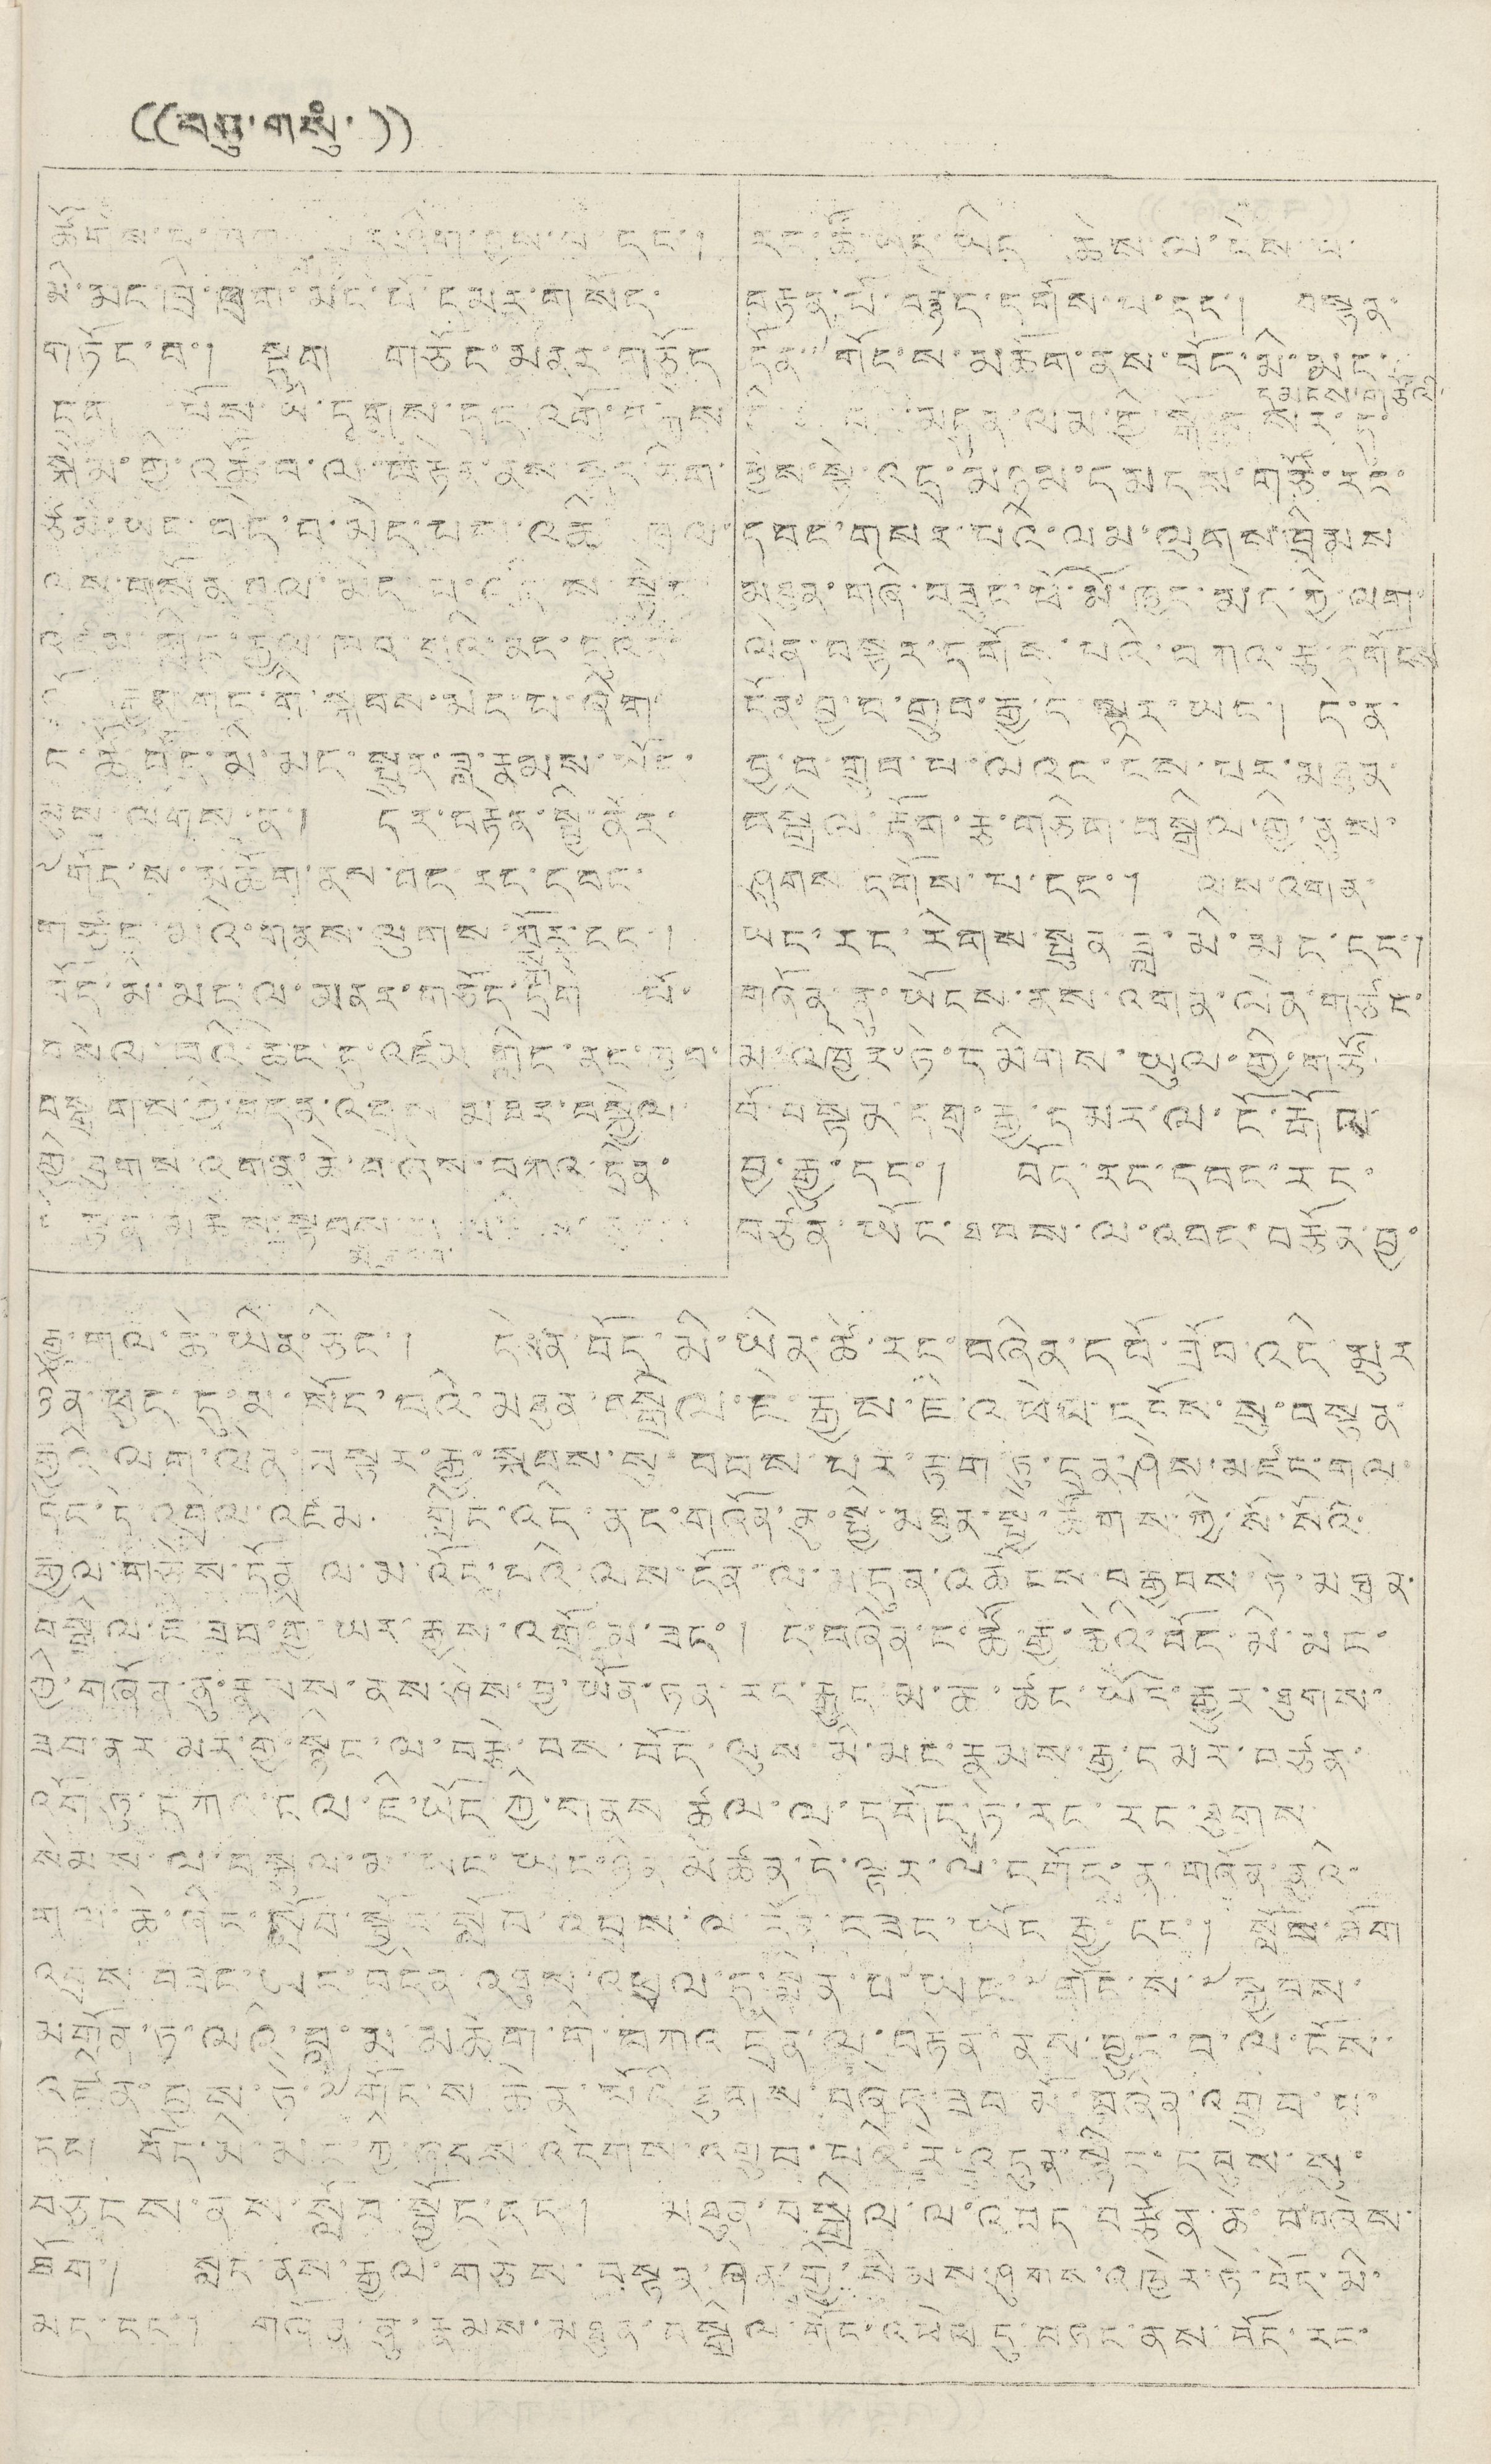(( བཅུ་གསུཾ་ ))
ཚོགས་པ་ཁག་   ར་ཤིག་བྱས་པ དང་།
མི་མང་ཁྲི་ཁྲག་མང་པོ་དམར་གསོད་
གཏོང་བ་། སྡུག གཅོང་མནར་གཅོད
དྲུག པོས་ཡི་དྭགས་དུད་འགྲོ་བསྐྲེས་
སྐོམ་གྱི་འཚོ་བ་ལ་བརྟེན་ནས་སྐད་ཅིག་
ཙམ་ཡང་བདེ་བ་མེད་པས་འཆི ཁྲལ་
ལས་གསོན བལ་མེད་པ་འདིས་སྟེང
འཛམ་གླིང་རྒྱལ་ཁབ་སུའི་མང་དུའང་
ལོ ་རྒྱས་གང་གི་སྐབས་མེད་པ་ཞིག་
ང་ཚོ་བོད་མི་མང་སྤུན་ཟླ་རྣམས་ཡོད་
མུས ལསག་ན་། དེར་བརྟེན་སྤྱི་ནོར་
༸གོང་ས་མཆོག་ནས་བོད་རང་དབང་
གཙང་མའི་གནས་ལུགས་སྐོར་དང་།
བོད་མི་མང་ལ་མནར་གཅོད་དྲག པོ་
བསེལ་བའི་ཆེད་དུ་འཛམ་གླིང་ནང་ཁྱབ་
བསྒྲགས་ཀྱི་བདེན་འབྲས་མཐར་བསྐྱེལ་
གྱི་ཐུགས་འགན་ཆེ་བཞེས་བཀའ་དྲིན་
སྟན་མཆེས་སྟབས  ས  ས་རུ ་
རང་ཚོ་ཡང་ཡིད་ཆེས་ལ་ངེས་པ་
བརྟན་པོ་བརྙེད་དགོས་པ་དང་། བསྟན་
དོན་་གོང་ས་མཆོག་ནས་བོད་མི་མང་
དམངས་གཙོའི་
གི  བ ་མདུན་ལམ་གྱི་སྒོ་གསར་དུ་
ཕྱེས་སྟེ་འདྲ་མཉམ་དམངས་གཙོ་རང་
དབང་གསར་པའི་ལམ་ལུགས་ཁྲིམས་
མཐུན་གཞི་བཟུང་ཕོ་མོ་ཁྱད་མེད་ཀྱི་ལག་
ལེན་བསྟན་དགོས་པའི་བཀའ་རྩ་དགོངས་
དོན་བྱ་བ་གྲུབ་རྒྱུ་དེ་སྟར་ཡང་། དེ་ན་
བྱ་བ་གྲུབ་པ་ལའང་ངས་པར་མཐུན་
བསྒྲིལ་རྡོག་རྩ་གཅིག་བསྒྲིལ་གྱི་ནུས་
ཤུགས་དགོས་པ་དང་། ལས་འགན་
ཡང་རང་རིགས་སྤུན་ཟླ་མི་མང་དང་།
གཞོན་ནུ་ཡོངས་ནས་འགན་ལེན་གཙང་
མ་འཁྱེར་ཏེ་དམིགས་ཡུལ་གྱི་གཙོ་
བོ་བསྟན་དགྲ་རྒྱ་དམར་ལ་ངོ་རྒོལ་
བྱ་རྒྱུ་དང་། བོད་རང་དབང་རང་
བཙན་ཡོང་ཐབས་ལ་འབད་བརྩོན་བྱ་
རྒྱུ་གལ་ཆེ་ཡིན་ཅིང་། དེས་ན་བོད་མི་ཡིན་ཚེ་རང་བཞིན་དབོ་ཟོབ་འདི་མུར་
ཉིན་ཕུད་དུ་མ་སོང་བའི་མཐུན་བསྒྲིལ་ཇེ་རྒྱས་ཇི་འཕེལ་དངོས་སུ་བསྟན་
རྒྱུའི་ལག་ལེན་བསྟར་རྒྱུ་སྐབས་སུ་བབས་པར་རྟག་ཏུ་དྲན་ཤེས་མཛད་གལ་
དང་དེ་འབྲེལ་འཛམ་ གླིང་འདི་ནང་གཞོན་ནུ་སྤྱི་མཐུན་སྤྱི་ཚོགས་ཀྱི་སོ་སོའི་
རྒྱལ་གཅེས་དོན ལ་མ་ལོངྶ་པའི་ལས་དོན་ལ་མདུན་འཆོངས་བརྒྱབས་ཏེ་མཐུན་
བསྒྲིལ་ཇི་ཟབ་གྱི་ཡར་རྒྱས་འགྲོ་
བ
མ་ཟད་། དེ་བཞིན་ང་ཚོ་རྒྱ་ཆེའི་བོད་མི་མང་
ཀྱི་གཞོན་ནུ་རྣམས་ནས་ཤེས་བྱ་ཡོན་ཏན་རང་རྒྱུད་མ་ཆ་ཚང་ཡོང་རྒྱུར་ཐུགས་
ཟབ་ནར་མར་གྱི་སྙིང་ལ་བརྩེ་བས་བོད་ལུས་མི་མང་རྣམས་རྒྱ་དམར་བཙན་
འོག་ཏུ་དཀའ་ངལ་ཇི་ཡོད་ཀྱི་གནས་ཚུལ་ལ་དགོངྶ་ཏེ་རང་རང་ཐུགས་
སེམས་ལ་བསྐུལ་མ་མང་ཡང་ཉིན་མཚན་དེ་ལྟར་ལ་དགོངས་ན་གཞོན་ནུའི་
གལ་ཆེ་ཞིང་སློབ་སྦྱོང་སློབ་འབྲས་ལ་དོན་བཟང་ཡོང་རྒྱུ་དང་། སློབ་ཐོག་
འབྲས་བཟང་ཡང་བདེན་འཐུས་འཕྲལ་དུ་སྨིན་པ་ཡང་༸གོང་ས་༸སྐྱབས་
མགོན་ཏཱ་ལའི་བླ་མ་མཆོག་གི་བཀའ དྲིན་ལ་བརྟེན་ནས་བྱུང་བ་ལོ་ངོས་
འཛིན་བྱས་ཏེ་༸གོང་ས ཆེན་པོའི་ཐུགས་བཞེད་ཟབ་མོ་བཞིན་འགྲུབ་པ་
དང་། བོད་མི་མང་གྱི་ཞབས་འདེགས་འགྲུབ་པའི་རེ་འདུན་སྙིང་དབུས་སུ་
བཅངས་ནས་སློབ་སྦྱོང་དང་། མཐུན་བསྒྲིལ་ལ་འབད བརྩོན་ཆེ་བའི་བཞེས་
ཐོག་། སླང་ནས་རྒྱལ་གཅེས་བསྟན་ཞེན་གྱི་སེམས་ཤུགས་འཁྱེར་ཏེ་བོད་མི་
མང་དང་། གཞོན་ནུ་རྣམས་མཐུན་བསྒྲིལ་གོང་འཕེལ དུ་བཏང་ནས་བོད་རང་
